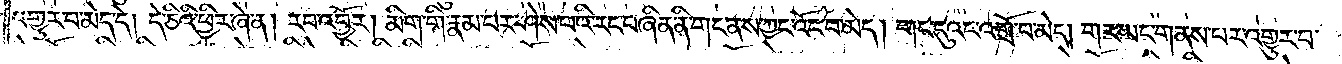འགྱུར་བ་མེད་དེ། དེ་ཅིའི་ཕྱིར་ཞེ་ན། རབ་འབྱོར། མིག་གི་རྣམ་པར་ཤེས་པའི་རང་བཞིན་ནི་གང་ནས་ཀྱང་འོང་བ་མེད། གང་དུའང་འགྲོ་བ་མེད། གར་ཡང་གནས་པར་འགྱུར་བ་
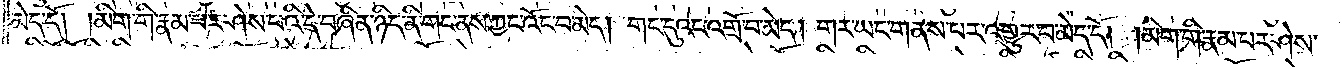མེད་དོ། །མིག་གི་རྣམ་པར་ཤེས་པའི་དེ་བཞིན་ཉིད་ནི་གང་ནས་ཀྱང་འོང་བ་མེད། གང་དུའང་འགྲོ་བ་མེད། གར་ཡང་གནས་པར་འགྱུར་བ་མེད་དོ། །མིག་གི་རྣམ་པར་ཤེས་
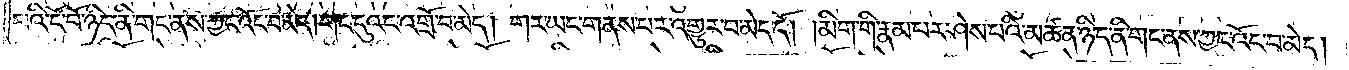པའི་ངོ་བོ་ཉིད་ནི་གང་ནས་ཀྱང་འོང་བ་མེད། གང་དུའང་འགྲོ་བ་མེད། གར་ཡང་གནས་པར་འགྱུར་བ་མེད་དོ། །མིག་གི་རྣམ་པར་ཤེས་པའི་མཚན་ཉིད་ནི་གང་ནས་ཀྱང་འོང་བ་མེད།
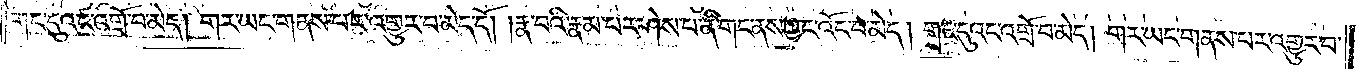གང་དུའང་འགྲོ་བ་མེད། གར་ཡང་གནས་པར་འགྱུར་བ་མེད་དོ། །རྣ་བའི་རྣམ་པར་ཤེས་པ་ནི་གང་ནས་ཀྱང་འོང་བ་མེད། གང་དུའང་འགྲོ་བ་མེད། གར་ཡང་གནས་པར་འགྱུར་བ་
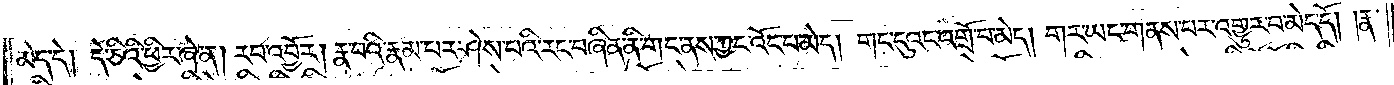མེད་དེ། དེ་ཅིའི་ཕྱིར་ཞེ་ན། རབ་འབྱོར། རྣ་བའི་རྣམ་པར་ཤེས་པའི་རང་བཞིན་ནི་གང་ནས་ཀྱང་འོང་བ་མེད། གང་དུའང་འགྲེ་བ་མེད། གར་ཡང་གནས་པར་འགྱུར་བ་མེད་དོ། །རྣ་
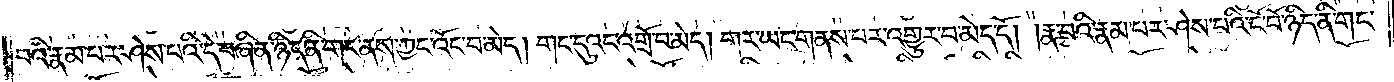བའི་རྣམ་པར་ཤེས་པའི་དེ་བཞིན་ཉིད་ནི་གར་ནས་ཀྱང་འོང་བ་མེད། གང་དུའང་འགྲོ་བ་མེད། གར་ཡང་གནས་པར་འགྱུར་བ་མེད་དོ། །རྣ་བའི་རྣམ་པར་ཤེས་པའི་ངོ་བོ་ཉིད་ནི་གང་
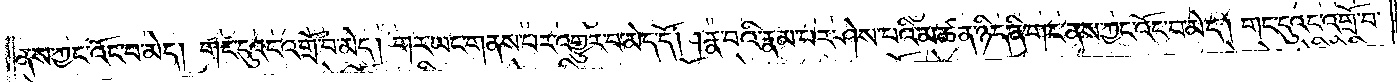ནས་ཀྱང་འོང་བ་མེད། གང་དུའང་འགྲོ་བ་མེད། གར་ཡང་གནས་པར་འགྱུར་བ་མེད་དོ། །རྣ་བའི་རྣམ་པར་ཤེས་པའི་མཚན་ཉིད་ནི་གང་ནས་ཀྱང་འོང་བ་མེད། གང་དུའང་འགྲོ་བ་
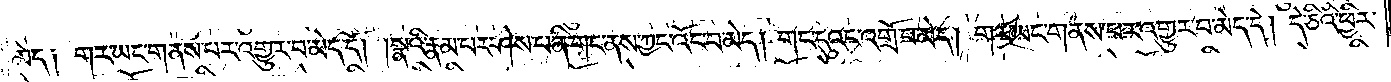མེད། གར་ཡང་གནས་པར་འགྱུར་བ་མེད་དོ། །སྣའི་རྣམ་པར་ཤེས་པ་ནི་གང་ནས་ཀྱང་འོང་བ་མེད། གང་དུའང་འགྲོ་བ་མེད། གར་ཡང་གནས་པར་འགྱུར་བ་མེད་དེ། དེ་ཅིའི་ཕྱིར་
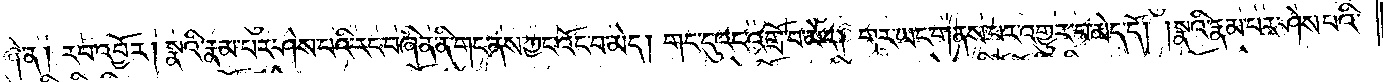ཞེ་ན། རབ་འབྱོར། སྣའི་རྣམ་པར་ཤེས་པའི་རང་བཞིན་ནི་གང་ནས་ཀྱང་འོང་བ་མེད། གང་དུའང་འགྲོ་བ་མེད། གར་ཡང་གནས་པར་འགྱུར་བ་མེད་དོ། །སྣའི་རྣམ་པར་ཤེས་པའི་
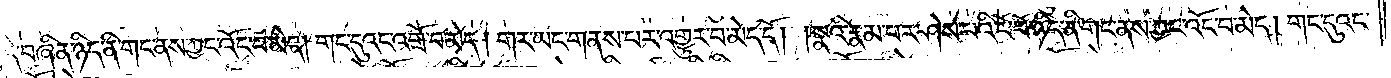དེ་བཞིན་ཉིད་ནི་གང་ནས་ཀྱང་འོང་བ་མེད། གང་དུའང་འགྲོ་བ་མེད། གར་ཡང་གནས་པར་འགྱུར་བ་མེད་དོ། །སྣའི་རྣམ་པར་ཤེས་པའི་ངོ་བོ་ཉིད་ནི་གང་ནས་ཀྱང་འོང་བ་མེད། གང་དུའང་
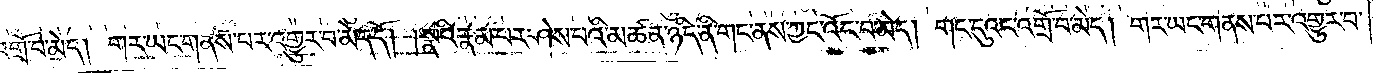འགྲོ་བ་མེད། གར་ཡང་གནས་པར་འགྱུར་བ་མེད་དོ། །སྣའི་རྣམ་པར་ཤེས་པའི་མཚན་ཉིད་ནི་གང་ནས་ཀྱང་འོང་བ་མེད། གང་དུའང་འགྲོ་བ་མེད། གར་ཡང་གནས་པར་འགྱུར་བ་
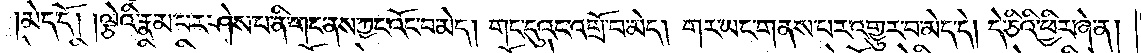མེད་དོ། །ལྕེའི་རྣམ་པར་ཤེས་པ་ནི་གང་ནས་ཀྱང་འོང་བ་མེད། གང་དུའང་འགྲོ་བ་མེད། གར་ཡང་གནས་པར་འགྱུར་བ་མེད་དེ། དེ་ཅིའི་ཕྱིར་ཞེ་ན།
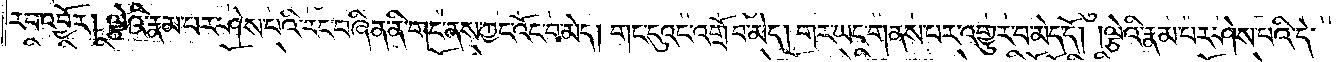རབ་འབྱོར། ལྕེའི་རྣམ་པར་ཤེས་པའི་རང་བཞིན་ནི་གང་ནས་ཀྱང་འོང་བ་མེད། གང་དུའང་འགྲོ་བ་མེད། གར་ཡང་གནས་པར་འགྱུར་བ་མེད་དོ། །ལྕེའི་རྣམ་པར་ཤེས་པའི་དེ་
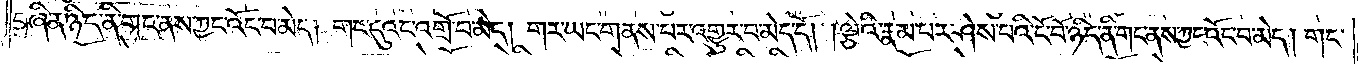བཞིན་ཉིད་ནི་གང་ནས་ཀྱང་འོང་བ་མེད། གང་དུའང་འགྲོ་བ་མེད། གར་ཡང་གནས་པར་འགྱུར་བ་མེད་དོ། །ལྕེའི་རྣམ་པར་ཤེས་པའི་ངོ་བོ་ཉིད་ནི་གང་ནས་ཀྱང་འོང་བ་མེད། གང་
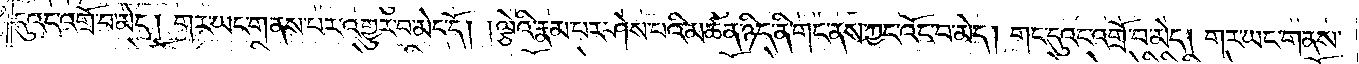དུའང་འགྲོ་བ་མེད། གར་ཡང་གནས་པར་འགྱུར་བ་མེད་དོ། །ལྕེའི་རྣམ་པར་ཤེས་པའི་མཚན་ཉིད་ནི་གང་ནས་ཀྱང་འོང་བ་མེད། གང་དུའང་འགྲོ་བ་མེད། གར་ཡང་གནས་
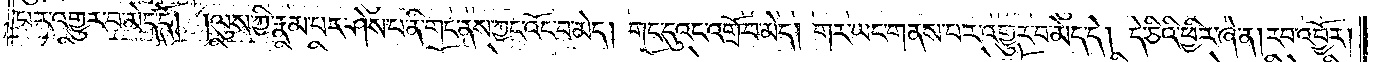པར་འགྱུར་བ་མེད་དོ། །ལུས་ཀྱི་རྣམ་པར་ཤེས་པ་ནི་གང་ནས་ཀྱང་འོང་བ་མེད། གང་དུའང་འགྲོ་བ་མེད། གར་ཡང་གནས་པར་འགྱུར་བ་མེད་དེ། དེ་ཅིའི་ཕྱིར་ཞེ་ན། རབ་འབྱོར།
